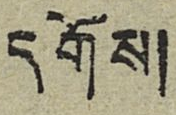དགོས།
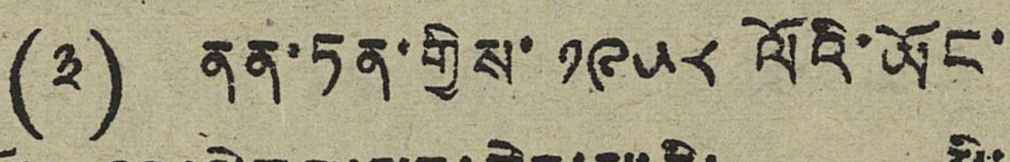(༣) ནན་ཏན་གྱིས་ ༡༩༥༨ ལོའི་ཡོང་
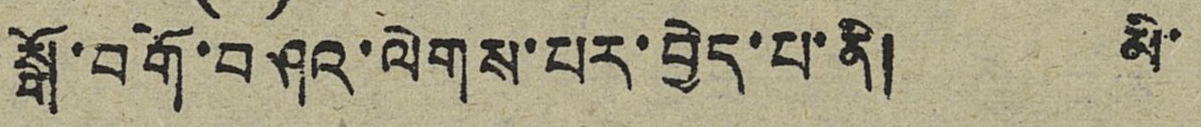སྒོ་བགོ་བཤའ་ལེགས་པར་བྱེད་པ་ནི། མི་
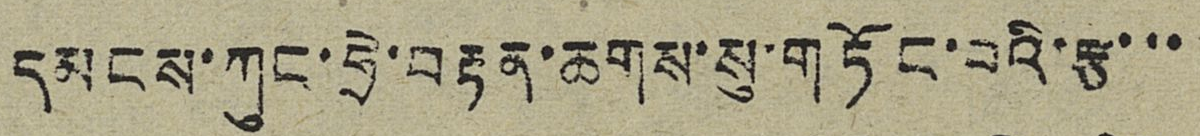དམངས་ཀུང་ཧྲེ་བརྟན་ཆགས་སུ་གཏོང་བའི་རྩ་་་
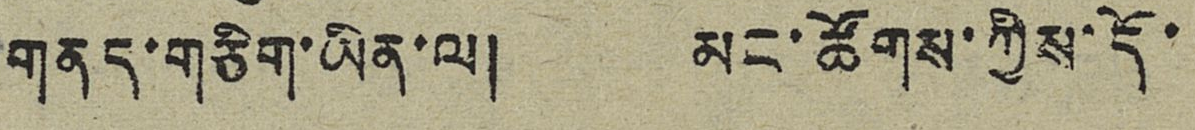གནད་གཅིག་ཡིན་ལ། མང་ཚོགས་ཀྱིས་དོ་
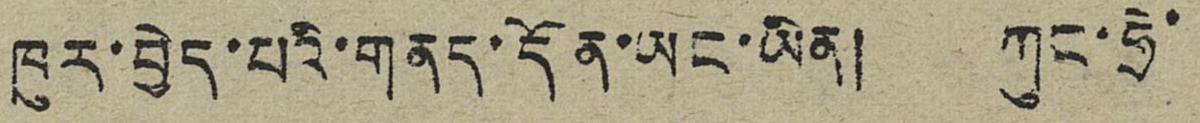ཁུར་བྱེད་པའི་གནད་དོན་ཡང་ཡིན། ཀུང་ཧྲེ་
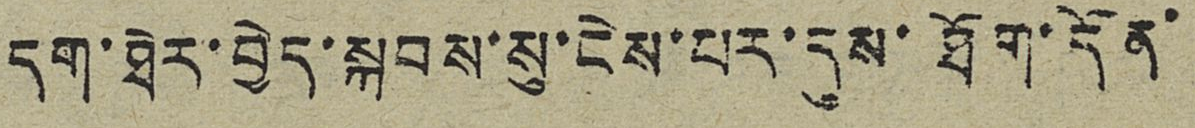དག་ཐེར་བྱེད་སྐབས་སུ་ངེས་པར་དུས་ཐོག་དོན་
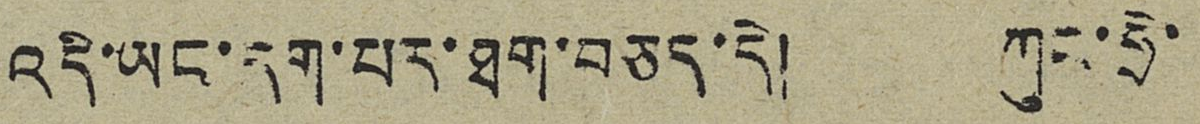འདི་ཡང་དག་པར་ཐག་བཅད་དེ། ཀུང་ཧྲེ་
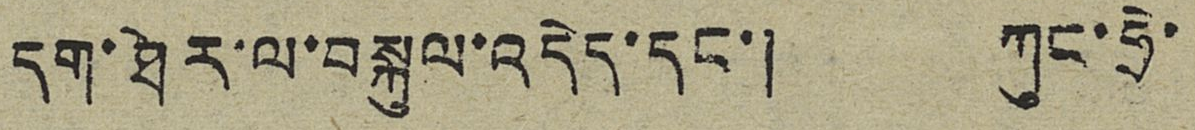དག་ཐེར་ལ་བསྐུལ་འདེད་དང་། ཀུང་ཧྲེ་
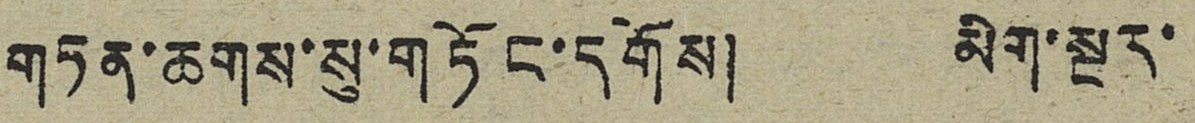གཏན་ཆགས་སུ་གཏོང་དགོས། མིག་སྔར་
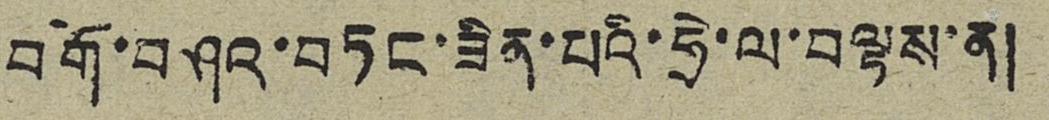བགོ་བཤའ་བཏང་ཟིན་པའི་ཧྲེ་ལ་བལྟས་ན།
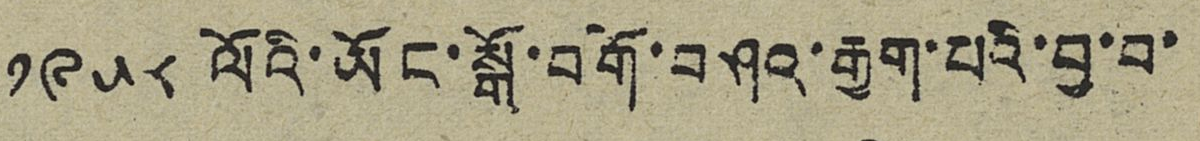༡༩༥༨ ལོའི་ཡོང་སྒོ་བགོ་བཤའ་རྒྱག་པའི་བྱ་བ་
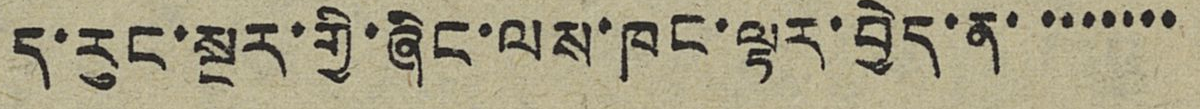ད་རུང་སྔར་གྱི་ཞིང་ལས་ཁང་ལྟར་བྱེད་ན་་་་་་་་
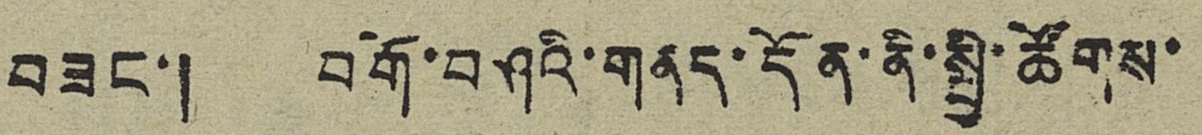བཟང་། བགོ་བཤའི་གནད་དོན་ནི་སྤྱི་ཚོགས་
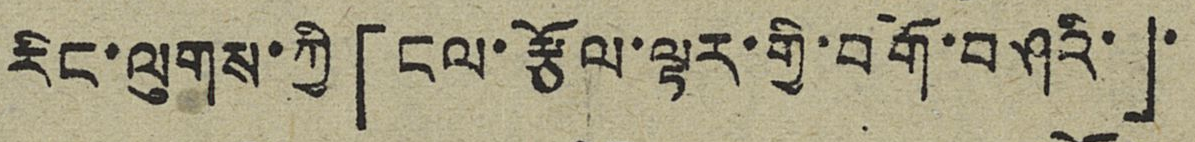རིང་ལུགས་ཀྱི「ངལ་རྩོལ་ལྟར་གྱི་བགོ་བཤའི་」
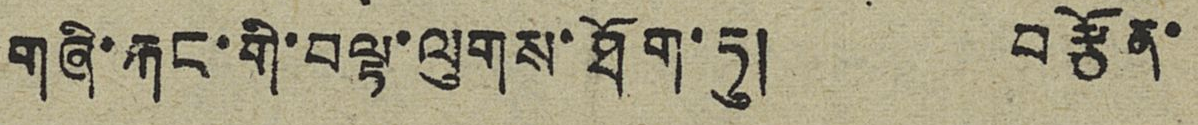གཞི་རྐང་གི་བལྟ་ལུགས་ཐོག་ཏུ། བརྩོན་
